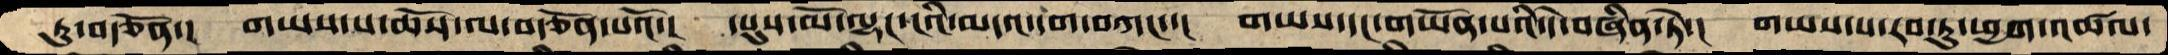ཏུ་བརྩོན་།  གཡས་པ་ཆོས་ལ་བརྩོན་པའོ་།  དཔུས་མོ་ལྷང་ངའི་མདའ་དག་བཀང་་།  གཡས་དང་གཡོན་པའི་དེ་བཞིན་ཏེ་།  གཡས་པ་རབ་ཏུ་ཕྱག་འཚལ་
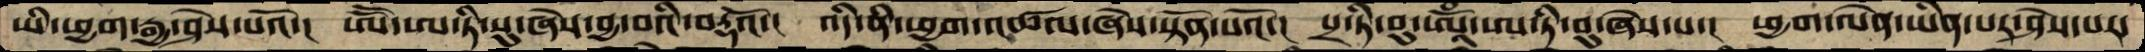ཡི་ཕྱག་རྒྱ་ཤེས་པའོ་།  ཨཽ་ཨ་ཏི་སུ་ཞེས་བྱ་་བའི་བརྡའོ་།  འདི་ནི་ཕྱག་འཚལ་ཞེས་སྟོན་པའོ་།  པྲ་ཏི་བུ་ཨཱོཾ་ཨ་ཏི་བུ་ཞེས་པ་།  ཕྱག་ལེན་ཡིན་པར་ཤེས་པར་
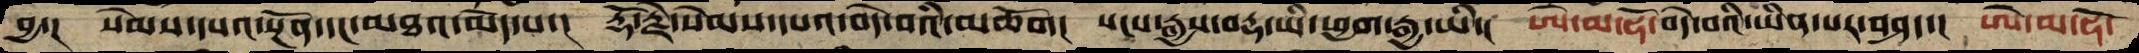བྱ་།  སེམས་དཔའ་སྔོན་དང་མཐའ་མེད་པ་།  རྡོ་རྗེ་སེམས་དཔའ་བདེ་བའི་མཆོག།  སངས་རྒྱས་བརྡ་ཡི་ཕྱག་རྒྱ་ཡི་། ཨེ་མ་ཧོ་བདེ་བའི་ཡིན་པར་བཤད་།  ཨེ་མ་ཧོ་
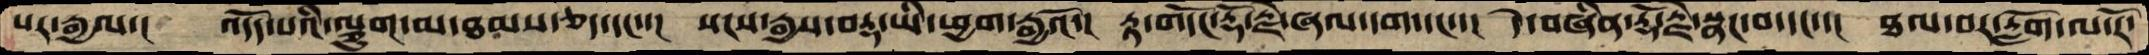པར་རྒྱལ་།  འདོད་པའི་ལྕུག་མ་ཐམས་ཅད་དང་་།  སངས་རྒྱས་བརྡ་ཡི་ཕྱག་རྒྱའོ་།  རྟ་གདོང་རྡོ་རྗེ་ཞལ་དག་དང་་།  དེ་བཞིན་རྡོ་རྗེ་སྣང་བ་དང་་།  ཐལ་བར་རློག་ལ་རོ་
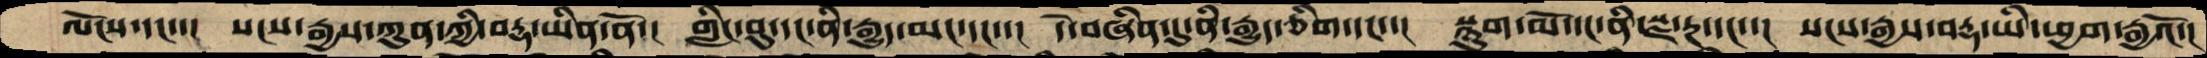ལོངས་དང་་།  སངས་རྒྱས་ཀུན་ཀྱི་བརྡ་ཡིན་ནོ་།  གླིང་བུ་དང་ནི་རྒྱུད་མང་དང་་།  དེ་བཞིན་དུ་ནི་རྒྱུད་ཅིག་དང་་།  སྙུག་མོ་དང་ནི་སྫ་རྔ་དང་་།  སངས་རྒྱས་བརྡ་ཡི་ཕྱག་རྒྱའོ་།
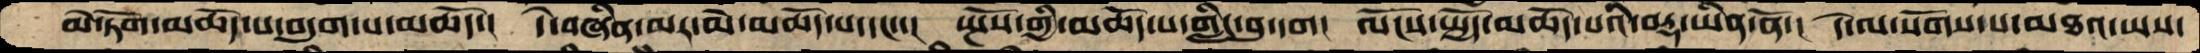མེ་ཏོག་མཆོད་པ་བདུག་པ་མཆོད་།  དེ་བཞིན་མར་མེ་མཆོད་པ་དང་་།  སྤོས་གྱི་མཆོད་པ་གླིང་བུ་དག།  ལོངས་སྤྱོད་མཆོད་པའི་བརྡ་ཡིན་ནོ་།  དེ་ལ་སོགས་པ་མཐའ་ཡས་
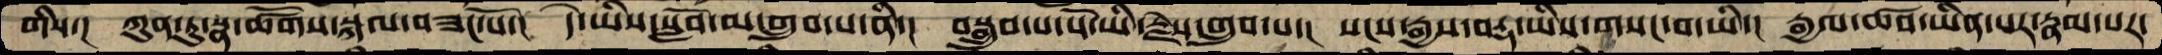གིས་།  ཀུན་ཏུ་སྣ་ཚོགས་སྐལ་བཟང་པོ་།  དེ་ཡིས་སློབ་མ་གྲུབ་པ་ནི་།  བསྒྲུབ་པ་པོ་ཡི་རྗེས་གྲུབ་པ་།  སངས་རྒྱས་བརྡ་ཡིས་གསང་བ་ཡི་།  རྒྱལ་ཚབ་ཡིན་པར་རྣམ་པར་
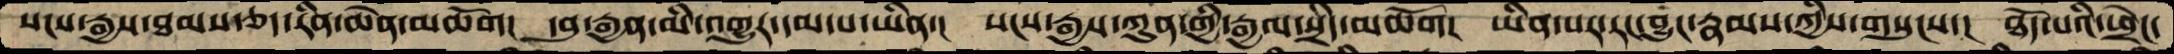སངས་རྒྱས་ཐམས་ཅད་རིན་ཆེན་མཆོག།  དབུ་རྒྱན་མི་འགྱུར་དམ་པ་ཡིན་།  སངས་རྒྱས་ཀུན་གྱི་རྒྱལ་སྲིད་མཆོག།  ཡིན་པར་རང་བྱུང་རྣམས་ཀྱིས་གསུངས་།  ཐོད་པའི་ཕྲེང་
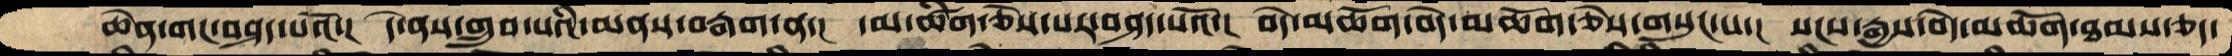ཆེན་གང་བཤད་པའོ་།  དེ་ནས་གྲུབ་པའི་མནས་བརྒག་ན་།  དམ་ཚིག་ཅེས་པར་བཤད་པའོ་།  བདེ་མཆོག་བདེ་མཆོག་ཅེས་གསུང་པ་།  སངས་རྒྱས་བདེ་མཆོག་ཐམས་ཅད་
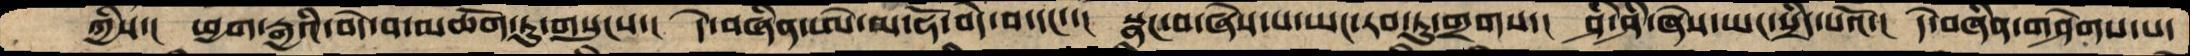ཀྱིས་།  ཕྱག་རྒྱའི་བདེ་བ་མཆོག་ཏུ་གསུངས་།  དེ་བཞིན་ཨེ་མ་ཧོ་བདེ་བ་དང་་།  སྣང་བ་ཞེས་པ་ཡང་རབ་ཏུ་གྲགས་།  ཤི་ཤི་ཞེས་ཡང་སྲིད་པའོ་།  དེ་བཞིན་གཤེགས་པ་
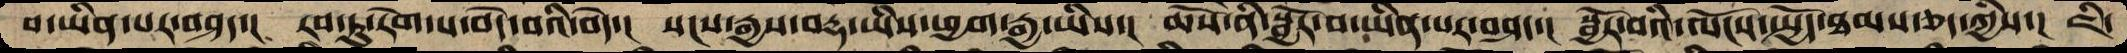བ་ཡིན་པར་བཤད་།  རབ་ཏུ་རེག་པ་བདེ་བའི་བདེ་།  སངས་རྒྱས་བརྡ་ཡིས་ཕྱག་རྒྱ་ཡིས་།  ཆོས་ནི་སྦྱོར་བ་ཡིན་པར་བཤད་།  སྦྱོར་བའི་ལོངས་སྤྱོད་ཐམས་ཅད་ཀྱིས་།  ཇི་
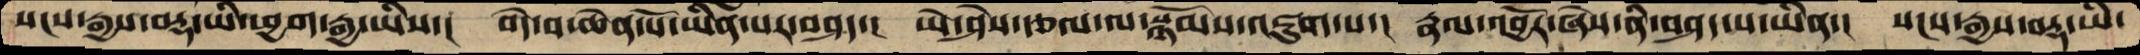སངས་རྒྱས་བརྡ་ཡི་ཕྱག་རྒྱ་ཡིས་།  བདེ་བ་ཆེན་པོ་ཡིན་པར་བཤད་།  ཡེ་ཤེས་རྩལ་ལ་སྙོམས་འཇུག་པ་།  རྣལ་འབྱོར་ཞེས་ནི་བཤད་པ་ཡིན་།  སངས་རྒྱས་བརྡ་ཡི་
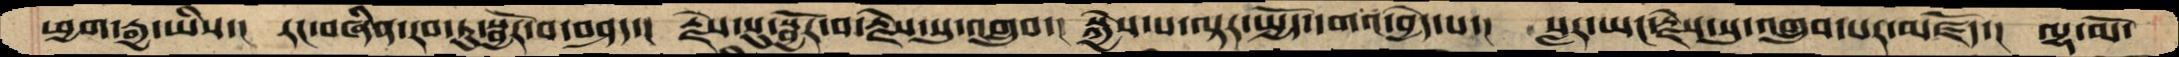ཕྱག་རྒྱ་ཡིས་།  རང་བཞིན་རབ་ཏུ་སྦྱོར་བ་བཤད་།  རྗེས་སུ་སྦྱོར་བ་རྗེས་སུ་འགྲུབ་།  སྐྱེས་པ་ལྟར་སྤྱོད་དགའ་བྱེད་པ་།  སླར་ཡང་རྗེས་སུ་འགྲུབ་པར་མཛད་།  ལྷ་མོ་
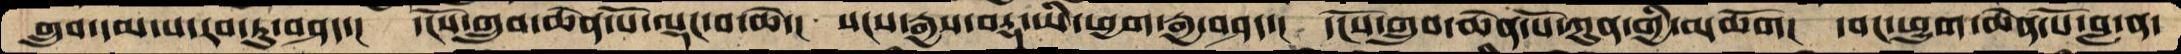གྲུབ་དམ་པ་རབ་ཏུ་བཤད་།  དངོས་གྲུབ་ཆེན་པོ་ལྡང་བ་ཆེ་།  སངས་རྒྱས་བརྡ་ཡི་ཕྱག་རྒྱ་བཤད་།  དངོས་གྲུབ་ཆེན་པོ་ཀུན་གྱི་མཆོག།  དབང་ཕྱུག་ཆེན་པོ་བླ་ན་
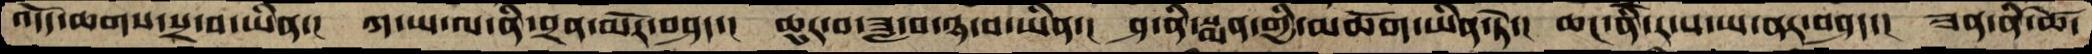འདོད་ཆགས་སྲ་བ་ཡིན་།  ཀ་ཡ་ལ་ནི་བྲན་མོར་བཤད་།  ཆུར་བ་ཟླ་བ་ཉ་བ་ཡིན་།  ཤ་ནི་སྨན་གྱི་མཆོག་ཡིན་ཏེ་།  ཆང་ནི་ར་ས་ཡ་ནར་བཤད་།  ཟན་ནི་ཚེ
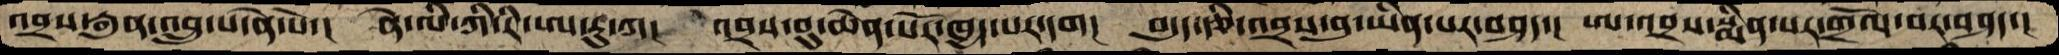འབྲས་རྒུན་འབྲུ་པ་ནེ་པོ་།  ནེ་ལི་ཀི་རི་ཨ་རུ་ཀ།  འབྲས་བུ་ཆེན་པོར་ཁྱད་པར་དག།  བདུད་རྩི་འབྲས་བུ་ཡིན་པར་བཤད་།  ཨ་འབྲས་སྨིན་པར་གྲོལ་བར་བཤད་།
